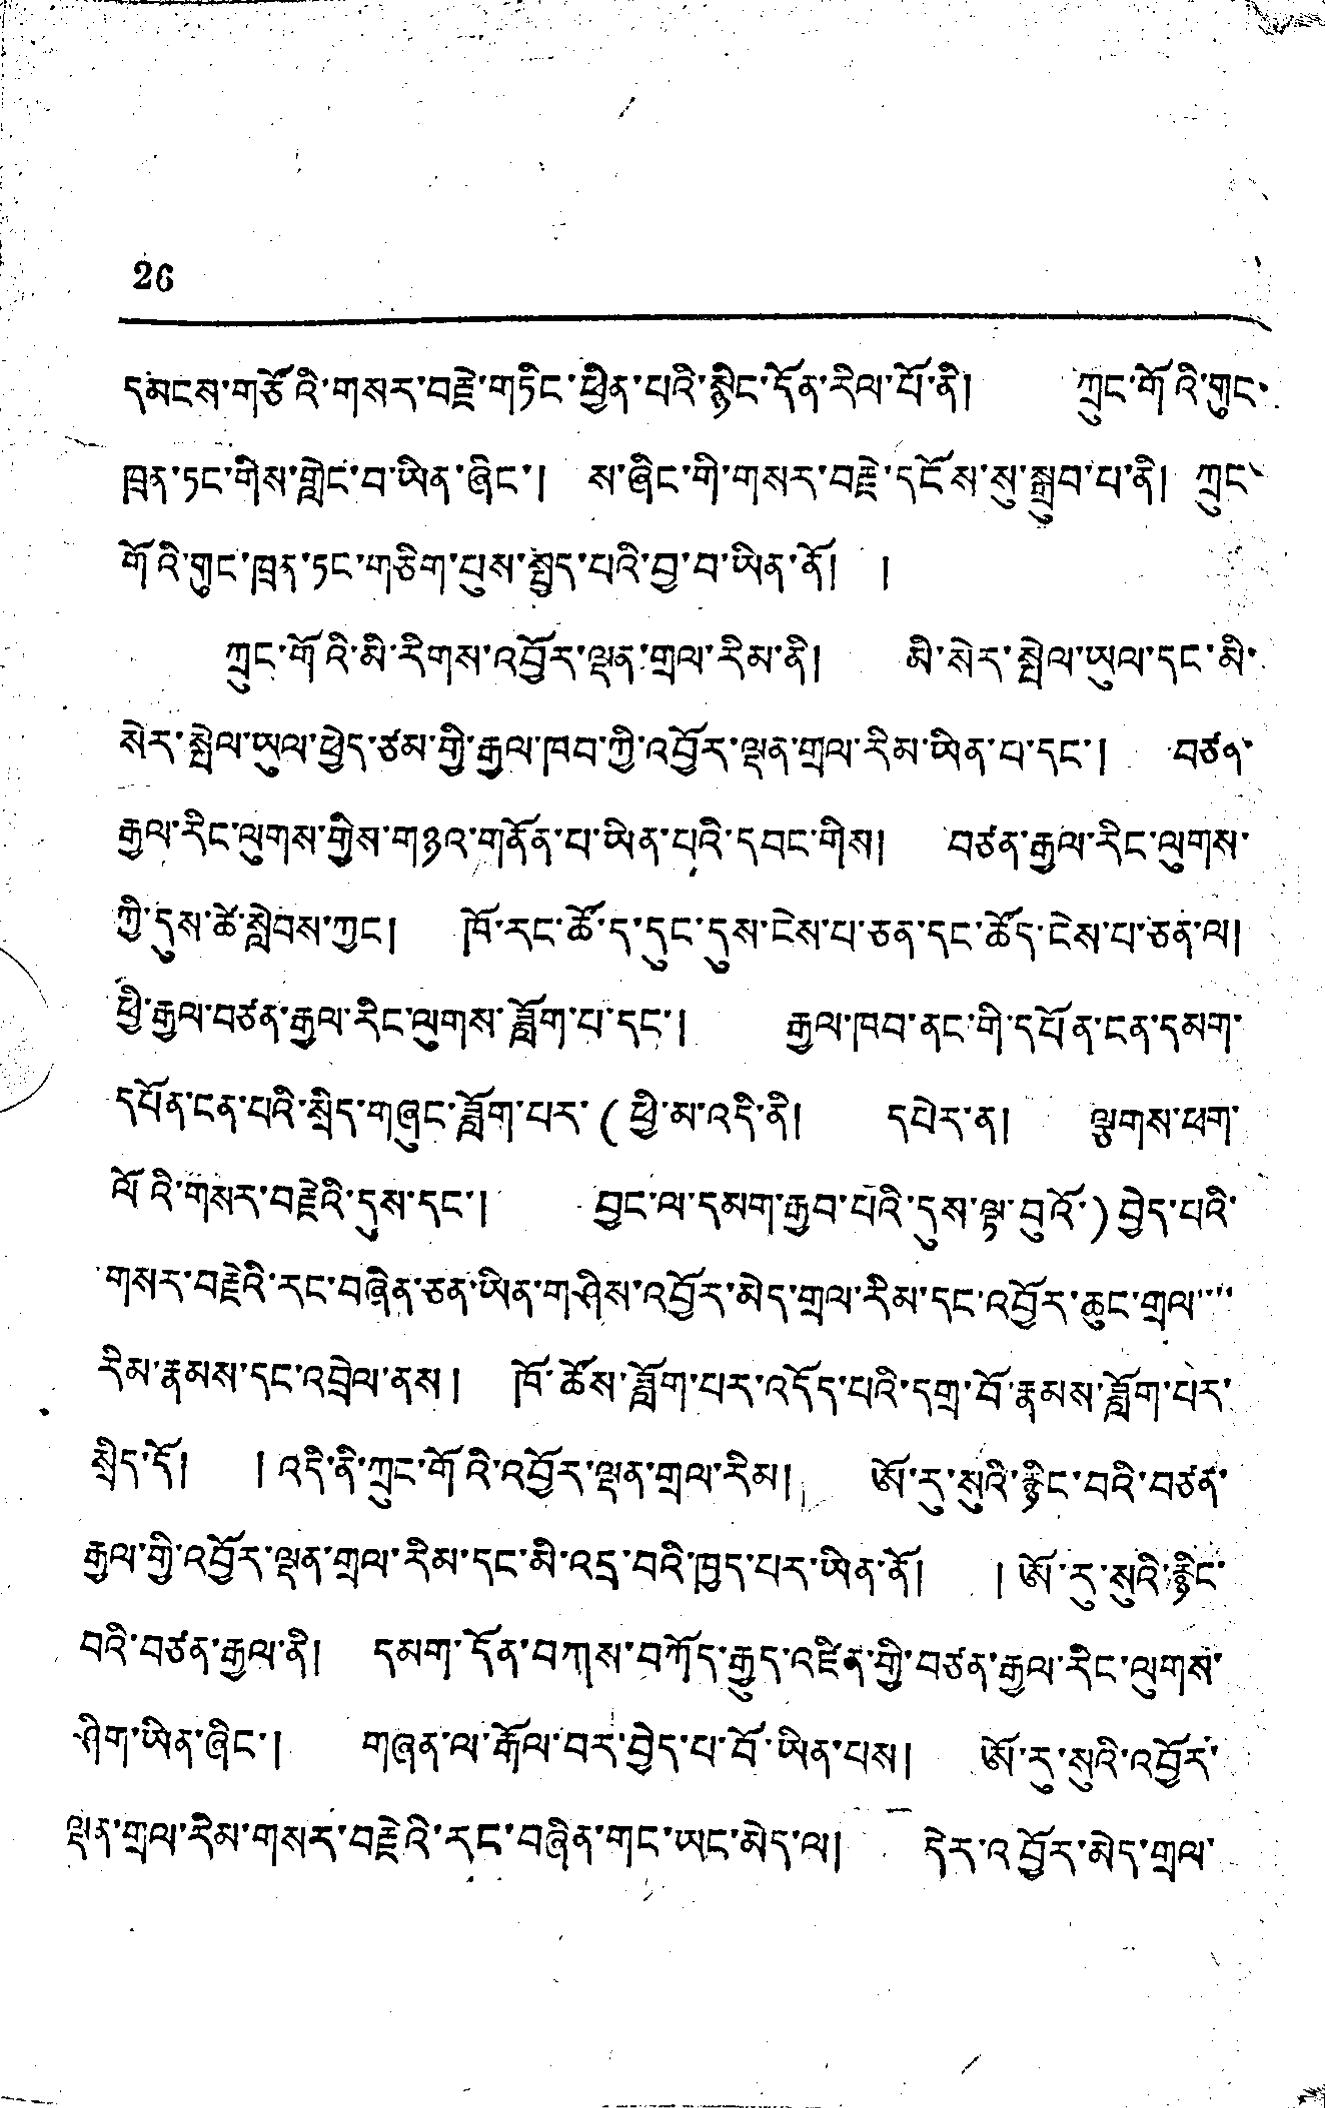26
དམངས་གཙོའི་གསར་བརྗེ་གཏིང་ཕྱིན་པའི་སྙིང་དོན་རིལ་པོ་ནི། ཀྲུང་གོའི་གུང་
ཁྲན་ཏང་གིས་གླེང་བ་ཡིན་ཞིང་། ས་ཞིང་གི་གསར་བརྗེ་དངོས་སུ་སྒྲུབ་པ་ནི། ཀྲུང་
གོའི་གུང་ཁྲན་ཏང་གཅིག་པས་སྤྱོད་པའི་བྱ་བ་ཡིན་ནོ། །
ཀྲུང་གོའི་མི་རིགས་འབྱོར་ལྡན་གྲལ་རིམ་ནི། མི་སེར་སྤེལ་ཡུལ་དང་མི་
སེར་སྤེལ་ཡུལ་ཕྱེད་ཙམ་གྱི་རྒྱལ་ཁབ་ཀྱི་འབྱོར་ལྡན་གྲལ་རིམ་ཡིན་པ་དང་། བཙན་
རྒྱལ་རིང་ལུགས་གྱིས་གཉའ་གནོན་པ་ཡིན་པའི་དབང་གིས། བཙན་རྒྱལ་རིང་ལུགས་
ཀྱི་དུས་ཚེ་སླེབས་ཀྱང། ཁོ་རང་ཚོ་ད་དུང་དུས་ངེས་པ་ཅན་དང་ཚོད་ངེས་པ་ཅན་ལ།
ཕྱི་རྒྱལ་བཙན་རྒྱལ་རིང་ལུགས་ཟློག་པ་དང་། རྒྱལ་ཁབ་ནང་གི་དཔོན་ངན་དམག་
དཔོན་ངན་པའི་སྲིད་གཞུང་ཟློག་པར་(ཕྱི་མ་འདི་ནི། དཔེར་ན། ལྕགས་ཕག་
ལོའི་གསར་བརྗེའི་དུས་དང་། བྱང་ལ་དམག་རྒྱབ་པའི་དུས་ལྟ་བུའོ་)བྱེད་པའི་
གསར་བརྗེའི་རང་བཞིན་ཅན་ཡིན་གཤིས་འབྱོར་མེད་གྲལ་རིམ་དང་འབྱོར་ཆུང་གྲལ་་་་
རིམ་རྣམས་དང་འབྲེལ་ནས། ཁོ་ཚོས་ཟློག་པར་འདོད་པའི་དགྲ་བོ་རྣམས་ཟློག་པར་
སྲིད་དོ། ། འདི་ནི་ཀྲུང་གོའི་འབྱོར་ལྡན་གྲལ་རིམ། ཨོ་རུ་སུའི་རྙིང་བའི་བཙན་
རྒྱལ་གྱི་འབྱོར་ལྡན་གྲལ་རིམ་དང་མི་འདྲ་བའི་ཁྱད་པར་ཡིན་ནོ། ། ཨོ་རུ་སུའི་རྙིང་
བའི་བཙན་རྒྱལ་ནི། དམག་དོན་བཀས་བཀོད་རྒྱུད་འཛིན་གྱི་བཙན་རྒྱལ་རིང་ལུགས་
ཤིག་ཡིན་ཞིང་། གཞན་ལ་རྒོལ་བར་བྱེད་པ་བོ་ཡིན་པས། ཨོ་རུ་སུའི་འབྱོར་
ལྡན་གྲལ་རིམ་གསར་བརྗེའི་རང་བཞིན་གང་ཡང་མེད་ལ། དེར་འབྱོར་མེད་གྲལ་
